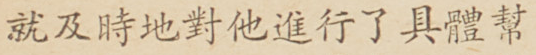就及時地對他進行了具體幫
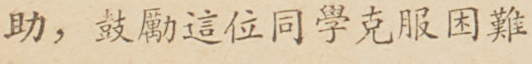助，鼓勵這位同學克服困難
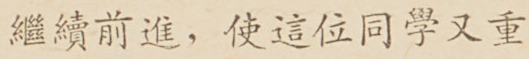繼續前進，使這位同學又重
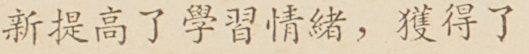新提高了學習情緒，獲得了
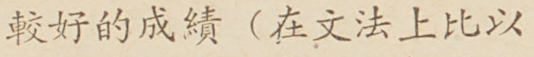較好的成績（在文法上比以
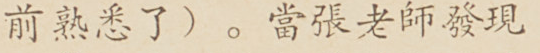前熟悉了）。當張老師發現
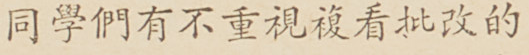同學們有不重視複看批改的
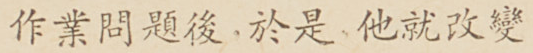作業問題後，於是，他就改變
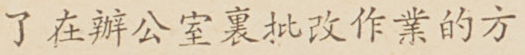了在辦公室裏批改作業的方
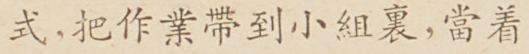式，把作業帶到小組裏，當着
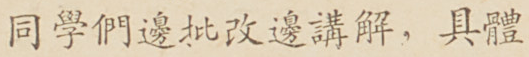同學們邊批改邊講解，具體
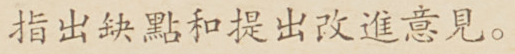指出缺點和提出改進意見。
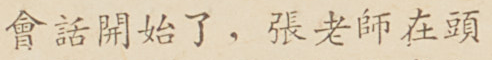會話開始了，張老師在頭
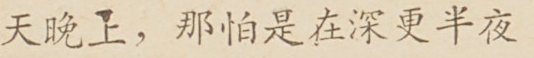天晚上，那怕是在深更半夜
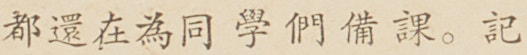都還在為同學們備課。記
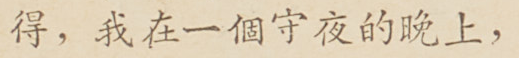得，我在一個守夜的晚上，
